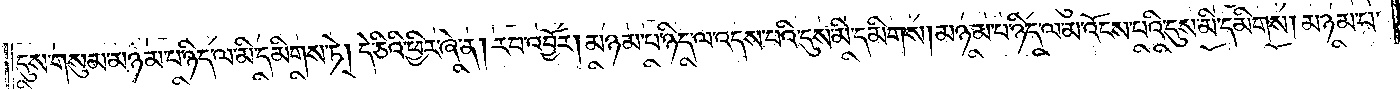དུས་གསུམ་མཉམ་པ་ཉིད་ལ་མི་དམིགས་ཏེ། དེ་ཅིའི་ཕྱིར་ཞེ་ན། རབ་འབྱོར། མཉམ་པ་ཉིད་ལ་འདས་པའི་དུས་མི་དམིགས། མཉམ་པ་ཉིད་པ་མ་འོངས་པའི་དུས་མི་དམིགས། མཉམ་པ་
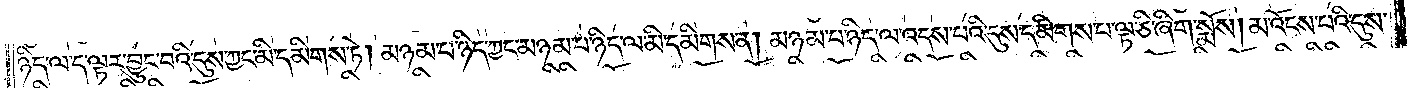ཉིད་ལ་ད་ལྟར་བྱུང་བའི་དུས་ཀྱང་མི་དམིགས་ཏེ། མཉམ་པ་ཉིད་ཀྱང་མཉམ་པ་ཉིད་ལ་མི་དམིགས་ན། མཉམ་པ་ཉིད་ལ་འདས་པའི་དུས་དམིགས་པ་ལྟ་ཅི་ཞིག་སྨོས། མ་འོངས་པའི་དུས་
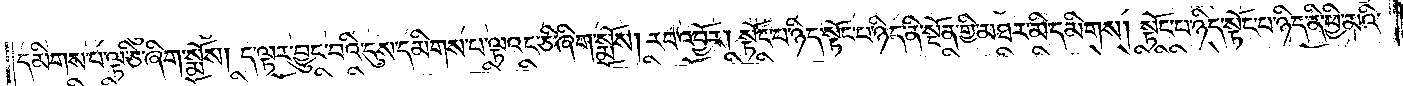དམིགས་པ་ལྟ་ཅི་ཞིག་སྨོས། ད་ལྟར་བྱུང་བའི་དུས་དམིགས་པ་ལྟའང་ཅི་ཞིག་སྨོས། རབ་འབྱོར། སྟོང་པ་ཉིད་སྟོང་པ་ཉིད་ནི་སྔོན་གྱི་མཐར་མི་དམིགས། སྟོང་པ་ཉིད་སྟོང་པ་ཉིད་ནི་ཕྱི་མའི་
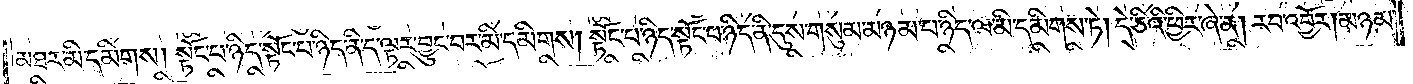མཐར་མི་དམིགས། སྟོང་པ་ཉིད་སྟོང་པ་ཉིད་ནི་ད་ལྟར་བྱུང་བར་མི་དམིགས། སྟོང་པ་ཉིད་སྟོང་པ་ཉིད་ནི་དུས་གསུམ་མཉམ་པ་ཉིད་ལ་མི་དམིགས་ཏེ། དེ་ཅིའི་ཕྱིར་ཞེ་ན། རབ་འབྱོར། མཉམ་
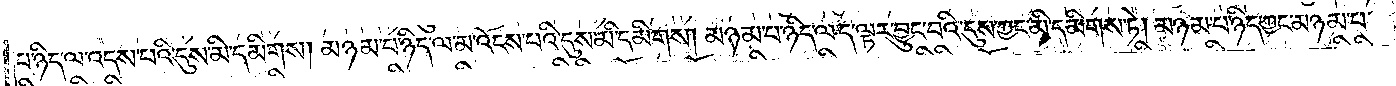པ་ཉིད་ལ་འདས་པའི་དུས་མི་དམིགས། མཉམ་པ་ཉིད་ལ་མ་འོངས་པའི་དུས་མི་དམིགས། མཉམ་པ་ཉིད་ལ་ད་ལྟར་བྱུང་བའི་དུས་ཀྱང་མི་དམིགས་ཏེ། མཉམ་པ་ཉིད་ཀྱང་མཉམ་པ་
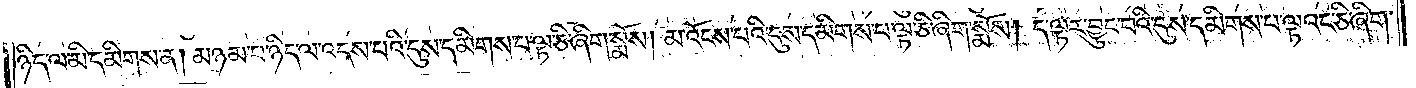ཉིད་ལ་མི་དམིགས་ན། མཉམ་པ་ཉིད་ལ་འདས་པའི་དུས་དམིགས་པ་ལྟ་ཅི་ཞིག་སྨོས། མ་འོངས་པའི་དུས་དམིགས་པ་ལྟ་ཅི་ཞིག་སྨོས། ད་ལྟར་བྱུང་བའི་དུས་དམིགས་པ་ལྟའང་ཅི་ཞིག་
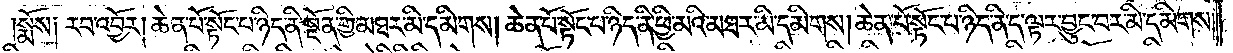སྨོས། རབ་འབྱོར། ཆེན་པོ་སྟོང་པ་ཉིད་ནི་སྔོན་གྱི་མཐར་མི་དམིགས། ཆེན་པོ་སྟོང་པ་ཉིད་ནི་ཕྱི་མའི་མཐར་མི་དམིགས། ཆེན་པོ་སྟོང་པ་ཉིད་ནི་ད་ལྟར་བྱུང་བར་མི་དམིགས།
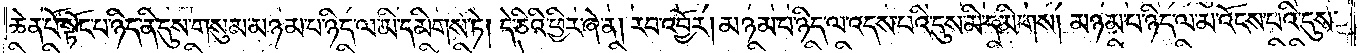ཆེན་པོ་སྟོང་པ་ཉིད་ནི་དུས་གསུམ་མཉམ་པ་ཉིད་ལ་མི་དམིགས་ཏེ། དེ་ཅིའི་ཕྱིར་ཞེ་ན། རབ་འབྱོར། མཉམ་པ་ཉིད་ལ་འདས་པའི་དུས་མི་དམིགས། མཉམ་པ་ཉིད་ལ་མ་འོངས་པའི་དུས་
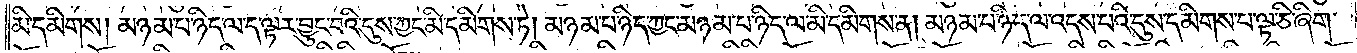མི་དམིགས། མཉམ་པ་ཉིད་ལ་ད་ལྟར་བྱུང་བའི་དུས་ཀྱང་མི་དམིགས་ཏེ། མཉམ་པ་ཉིད་ཀྱང་མཉམ་པ་ཉིད་ལ་མི་དམིགས་ན། མཉམ་པ་ཉིད་ལ་འདས་པའི་དུས་དམིགས་པ་ལྟ་ཅི་ཞིག་
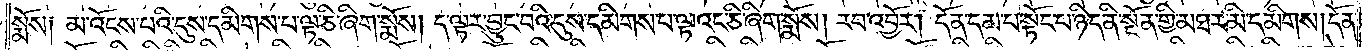སྨོས། མ་འོངས་པའི་དུས་དམིགས་པ་ལྟ་ཅི་ཞིག་སྨོས། ད་ལྟར་བྱུང་བའི་དུས་དམིགས་པ་ལྟའང་ཅི་ཞིག་སྨོས། རབ་འབྱོར། དོན་དམ་པ་སྟོང་པ་ཉིད་ནི་སྔོན་གྱི་མཐར་མི་དམིགས། དོན་
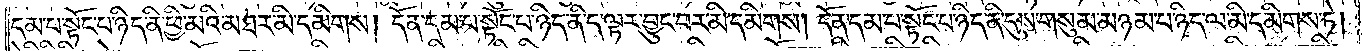དམ་པ་སྟོང་པ་ཉིད་ནི་ཕྱི་མའི་མཐར་མི་དམིགས། དོན་དམ་པ་སྟོང་པ་ཉིད་ནི་ད་ལྟར་བྱུང་བར་མི་དམིགས། དོན་དམ་པ་སྟོང་པ་ཉིད་ནི་དུས་གསུམ་མཉམ་པ་ཉིད་ལ་མི་དམིགས་ཏེ།
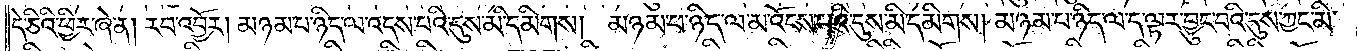དེ་ཅིའི་ཕྱིར་ཞེ་ན། རབ་འབྱོར། མཉམ་པ་ཉིད་ལ་འདས་པའི་དུས་མི་དམིགས། མཉམ་པ་ཉིད་ལ་མ་འོངས་པའི་དུས་མི་དམིགས། མཉམ་པ་ཉིད་ལ་ད་ལྟར་བྱུང་བའི་དུས་ཀྱང་མི་
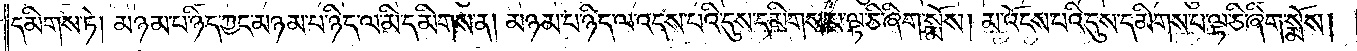དམིགས་ཏེ། མཉམ་པ་ཉིད་ཀྱང་མཉམ་པ་ཉིད་ལ་མི་དམིགས་ན། མཉམ་པ་ཉིད་ལ་འདས་པའི་དུས་དམིགས་པ་ལྟ་ཅི་ཞིག་སྨོས། མ་འོངས་པའི་དུས་དམིགས་པ་ལྟ་ཅི་ཞིག་སྨོས།
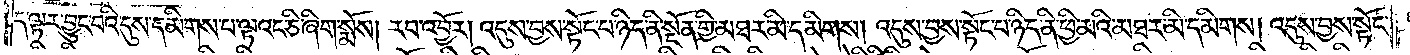ད་ལྟར་བྱུང་བའི་དུས་དམིགས་པ་ལྟའང་ཅི་ཞིག་སྨོས། རབ་འབྱོར། འདུས་བྱས་སྟོང་པ་ཉིད་ནི་སྔོན་གྱི་མཐར་མི་དམིགས། འདུས་བྱས་སྟོང་པ་ཉིད་ནི་ཕྱི་མིའི་མཐར་མི་དམིགས། འདུས་བྱས་སྟོང་
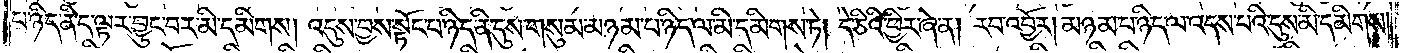པ་ཉིད་ནི་ད་ལྟར་བྱུང་བར་མི་དམིགས། འདུས་བྱས་སྟོང་པ་ཉིད་ནི་དུས་གསུམ་མཉམ་པ་ཉིད་ལ་མི་དམིགས་ཏེ། དེ་ཅིའི་ཕྱི་ཞེ་ན། རབ་འབྱོར། མཉམ་པ་ཉིད་ལ་འདས་པའི་དུས་མི་དམིགས།
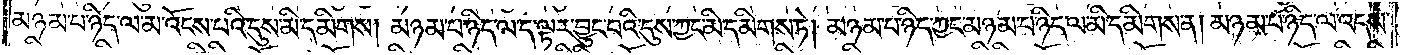མཉམ་པ་ཉིད་ལ་མ་འོངས་པའི་དུས་མི་དམིགས། མཉམ་པ་ཉིད་ལ་ད་ལྟར་བྱུང་བའི་དུས་ཀྱང་མི་དམིགས་ཏེ། མཉམ་པ་ཉིད་ཀྱང་མཉམ་པ་ཉིད་ལ་མི་དམིགས་ན། མཉམ་པ་ཉིད་ལ་འདས་
